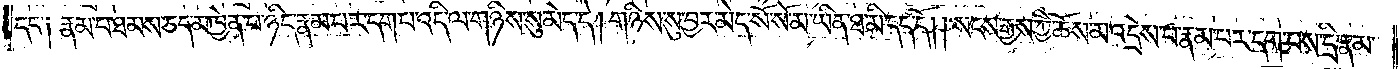དང་༑ རྣམ་པ་ཐམས་ཅད་མཁྱེན་པ་ཉིད་རྣམ་པར་དག་པ་འདི་ལ་གཉིས་སུ་མེད་དེ། གཉིས་སུ་བྱར་མེད་སོ་སོ་མ་ཡིན་ཐ་མི་དད་དོ། །སངས་རྒྱས་ཀྱི་ཆོས་མ་འདྲེས་པ་རྣམ་པར་དག་པས་དྲི་རྣམ་
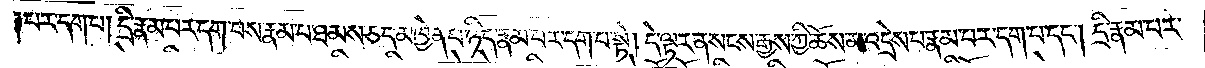པར་དག་པ། དྲི་རྣམ་པར་དག་པས་རྣམ་པ་ཐམས་ཅད་མཁྱེན་པ་ཉིད་རྣམ་པར་དག་པ་སྟེ། དེ་ལྟར་ན་སངས་རྒྱས་ཀྱི་ཆོས་མ་འདྲེས་པ་རྣམ་པར་དག་པ་དང༌། དྲི་རྣམ་པར་
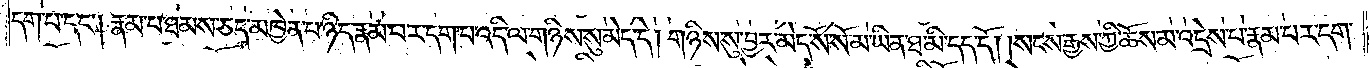དག་པ་དང༌། རྣམ་པ་ཐམས་ཅད་མཁྱེན་པ་ཉིད་རྣམ་པར་དག་པ་འདི་ལ་གཉིས་སུ་མེད་དེ། གཉིས་སུ་བྱར་མེད་སོ་སོ་མ་ཡིན་ཐ་མི་དད་དོ། །སངས་རྒྱས་ཀྱི་ཆོས་མ་འདྲེས་པ་རྣམ་པར་དག་
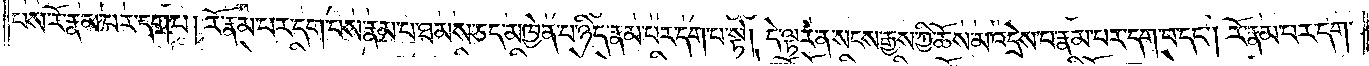པས་རོ་རྣམ་པར་དག་པ། རོ་རྣམ་པར་དག་པས་རྣམ་པ་ཐམས་ཅད་མཁྱེན་པ་ཉིད་རྣམ་པར་དག་པ་སྟེ། དེ་ལྟར་ན་སངས་རྒྱས་ཀྱི་ཆོས་མ་འདྲེས་པ་རྣམ་པར་དག་པ་དང༌། རོ་རྣམ་པར་དག་
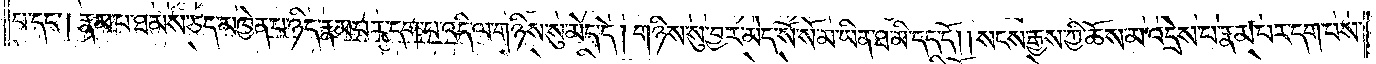པ་དང༌། རྣམ་པ་ཐམས་ཅད་མཁྱེན་པ་ཉིད་རྣམ་པར་དག་པ་འདི་ལ་གཉིས་སུ་མེད་དེ། གཉིས་སུ་བྱར་མེད་སོ་སོ་མ་ཡིན་ཐ་མི་དད་དོ། །སངས་རྒྱས་ཀྱི་ཆོས་མ་འདྲེས་པ་རྣམ་པར་དག་པས་
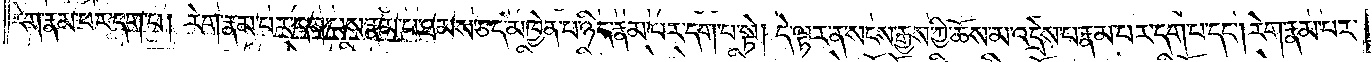རེག་རྣམ་པར་དག་པ། རེག་རྣམ་པར་དག་པས་རྣམ་པར་ཐམས་ཅད་མཁྱེན་པ་ཉིད་རྣམ་པར་དག་པ་སྟེ། དེ་ལྟར་ན་སངས་རྒྱས་ཀྱི་ཆོས་མ་འདྲེས་པ་རྣམ་པར་དག་པ་དང༌། རེག་རྣམ་པར་
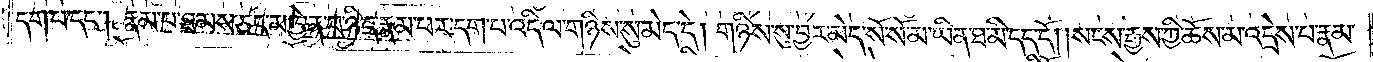དག་པ་དང༌། རྣམ་པ་ཐམས་ཅད་མཁྱེན་པ་ཉིད་རྣམ་པར་དག་པ་འདི་ལ་གཉིས་སུ་མེད་དེ། གཉིས་སུ་བྱར་མེད་སོ་སོ་མ་ཡིན་ཐ་མི་དད་དོ། །སངས་རྒྱས་ཀྱི་ཆོས་མ་འདྲེས་པ་རྣམ་
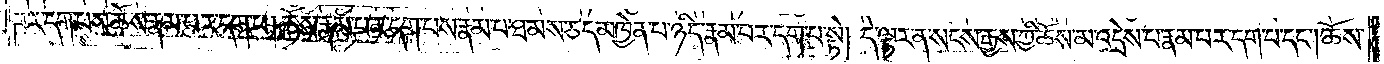པར་དག་པས་ཆོས་རྣམ་པར་དག་པ། ཆོས་རྣམ་པར་དག་པས་རྣམ་པ་ཐམས་ཅད་མཁྱེན་པ་ཉིད་རྣམ་པར་དག་པ་སྟེ། དེ་ལྟར་ན་སངས་རྒྱས་ཀྱི་ཆོས་མ་འདྲེས་པ་རྣམ་པར་དག་པ་དང༌། ཆོས་
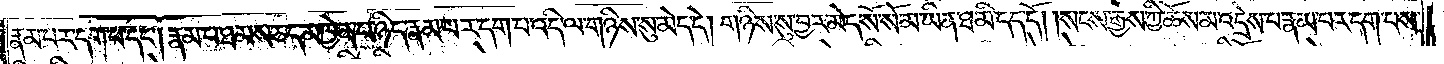རྣམ་པར་དག་པ་དང༌། རྣམ་པ་ཐམས་ཅད་མཁྱེན་པ་ཉིད་རྣམ་པར་དག་པ་འདི་ལ་གཉིས་སུ་མེད་དེ། གཉིས་སུ་བྱར་མེད་སོ་སོ་མ་ཡིན་ཐ་མི་དད་དོ། །སངས་རྒྱས་ཀྱི་ཆོས་མ་འདྲེས་པ་རྣམ་པར་དག་པས་
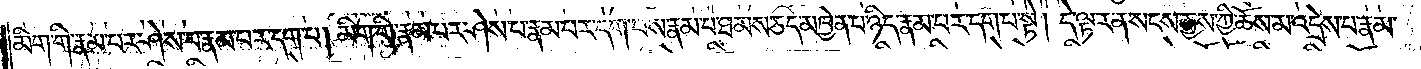མིག་གི་རྣམ་པར་ཤེས་པ་རྣམ་པར་དག་པ། མིག་གི་རྣམ་པར་ཤེས་པ་རྣམ་པར་དག་པས་རྣམ་པར་ཐམས་ཅད་མཁྱེན་པ་ཉིད་རྣམ་པར་དག་པ་སྟེ། དེ་ལྟར་ན་སངས་རྒྱས་ཀྱི་ཆོས་མ་འདྲེས་པ་རྣམ་
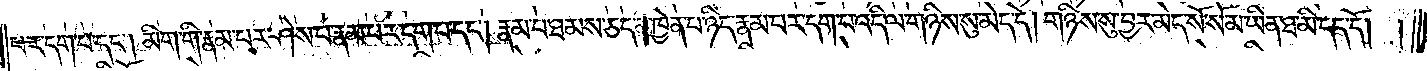པར་དག་པ་དང༌། མིག་གི་རྣམ་པར་ཤེས་པ་རྣམ་པར་དག་པ་དང༌། རྣམ་པ་ཐམས་ཅད་མཁྱེན་པ་ཉིད་རྣམ་པར་དག་པ་འདི་ལ་གཉིས་སུ་མེད་དེ། གཉིས་སུ་བྱར་མེད་སོ་སོ་མ་ཡིན་ཐ་མི་དད་དོ། །
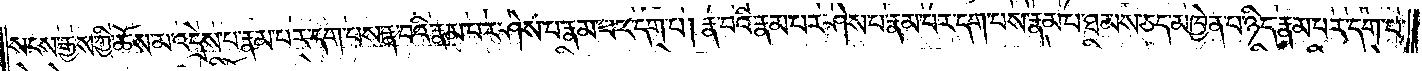སངས་རྒྱས་ཀྱི་ཆོས་མ་འདྲེས་པ་རྣམ་པར་དག་པས་རྣ་བའི་རྣམ་པར་ཤེས་པ་རྣམ་པར་དག་པ། རྣ་བའི་རྣམ་པར་ཤེས་པ་རྣམ་པར་དག་པས་རྣམ་པ་ཐམས་ཅད་མཁྱེན་པ་ཉིད་རྣམ་པར་དག་པ་
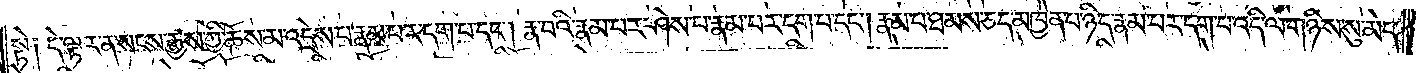སྟེ༑ དེ་ལྟར་ན་སངས་རྒྱས་ཀྱི་ཆོས་མ་འདྲེས་པ་རྣམ་པར་དག་པ་དང༌། རྣ་བའི་རྣམ་པར་ཤེས་པ་རྣམ་པར་དག་པ་དང༌། རྣམ་པ་ཐམས་ཅད་མཁྱེན་པ་ཉིད་རྣམ་པར་དག་པ་འདི་ལ་གཉིས་སུ་མེད་
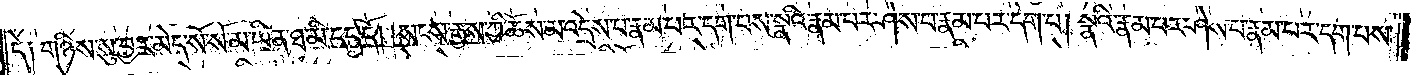དེ༑ གཉིས་སུ་བྱར་མེད་སོ་སོ་མ་ཡིན་ཐ་མི་དད་དོ། །སངས་རྒྱས་ཀྱི་ཆོས་མ་འདྲེས་པ་རྣམ་པར་དག་པས་སྣའི་རྣམ་པར་ཤེས་པ་རྣམ་པར་དག་པ། སྣའི་རྣམ་པར་ཤེས་པ་རྣམ་པར་དག་པས་
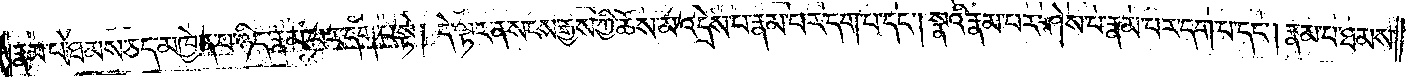རྣམ་པ་ཐམས་ཅད་མཁྱེན་པ་ཉིད་རྣམ་པར་དག་པ་སྟེ། དེ་ལྟར་ན་སངས་རྒྱས་ཀྱི་ཆོས་མ་འདྲེས་པ་རྣམ་པར་དག་པ་དང༌། སྣའི་རྣམ་པར་ཤེས་པ་རྣམ་པར་དག་པ་དང༌། རྣམ་པ་ཐམས་
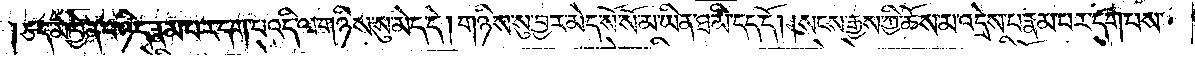ཅད་མཁྱེན་པ་ཉིད་རྣམ་པར་དག་པ་འདི་ལ་གཉིས་སུ་མེད་དེ། གཉིས་སུ་བྱར་མེད་སོ་སོ་མ་ཡིན་ཐ་མི་དད་དོ། །སངས་རྒྱས་ཀྱི་ཆོས་མ་འདྲེས་པ་རྣམ་པར་དག་པས་
